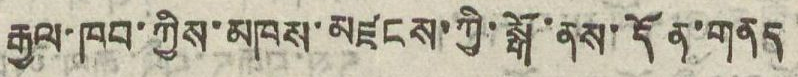རྒྱལ་ཁབ་ཀྱིས་མཁས་མཛངས་ཀྱི་སྒོ་ནས་དོན་གནད
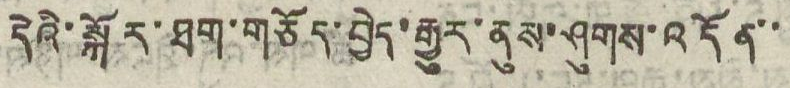དེའི་སྐོར་ཐག་གཅོད་བྱེད་རྒྱུར་ནུས་ཤུགས་འདོན་་
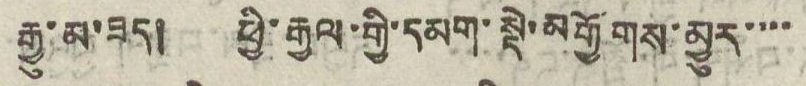རྒྱུ་མ་ཟད། ཕྱི་རྒྱལ་གྱི་དམག་སྡེ་མགྱོགས་མྱུར་་་་
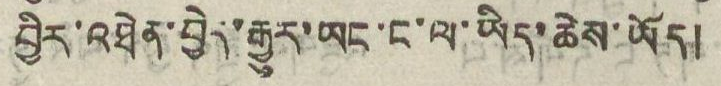བྱིར་འཐེན་བྱེད་རྒྱུར་ཡང་ང་ལ་ཡིད་ཆེས་ཡོད།
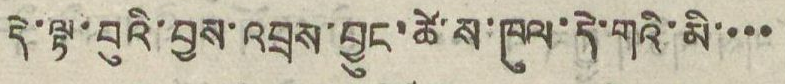དེ་ལྟ་བུའི་བྱས་འབྲས་བྱུང་ཚེ་ས་ཁུལ་དེ་གའི་མི་་་་
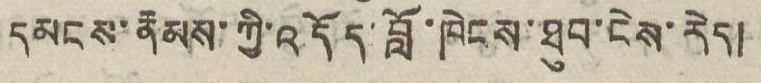དམངས་རྣམས་ཀྱི་འདོད་བློ་ཁེངས་ཐུབ་ངེས་རེད།
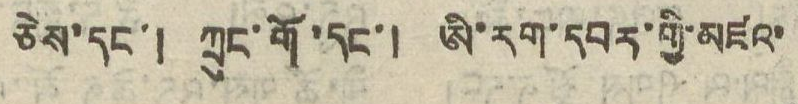ཅེས་དང་། ཀྲུང་གོ་དང་། ཨི་རག་དབར་གྱི་མཛའ་
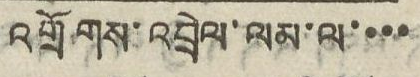འགྲོགས་འབྲེལ་ལམ་ལ་་་་
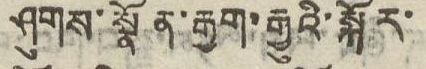ཤུགས་སྣོན་རྒྱག་རྒྱུའི་སྐོར་
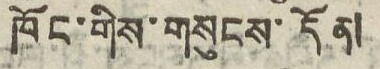ཁོང་གིས་གསུངས་དོན།
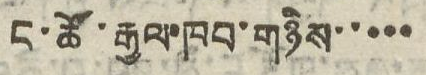ང་ཚོ་རྒྱལ་ཁབ་གཉིས་་་་་
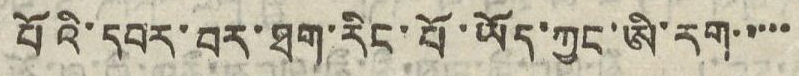པོའི་དབར་བར་ཐག་རིང་པོ་ཡོད་ཀྱང་ཨི་རག་་་་་
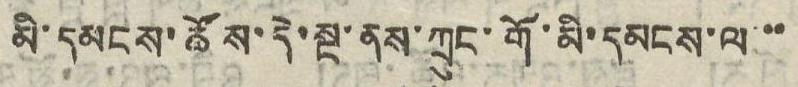མི་དམངས་ཚོས་དེ་སྔ་ནས་ཀྲུང་གོ་མི་དམངས་ལ་་་
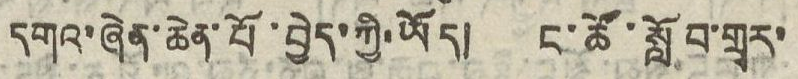དགའ་ཞེན་ཆེན་པོ་བྱེད་ཀྱི་ཡོད། ང་ཚོ་སློབ་གྲྭར་
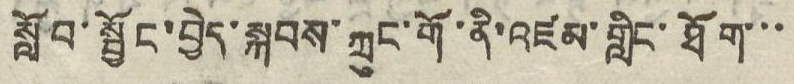སློབ་སྦྱོང་བྱེད་སྐབས་ཀྲུང་གོ་ནི་འཛམ་གླིང་ཐོག་་་
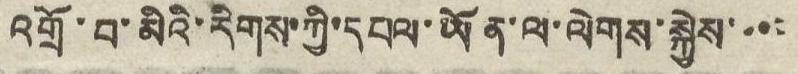འགྲོ་བ་མིའི་རིགས་ཀྱི་དཔལ་ཡོན་ལ་ལེགས་སྐྱེས་་་་
